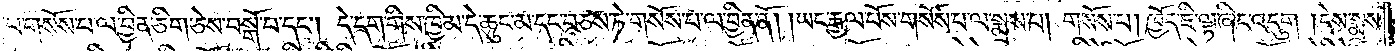པ་གསོས་པ་ལ་བྱིན་ཅིག་ཅེས་བསྒོ་བ་དང༌། དེ་དག་གིས་ཁྱིམ་དེ་ཆུང་མ་དང་བཅས་ཏེ་གསོས་པ་ལ་བྱིན་ནོ། །ཡང་རྒྱལ་པོས་གསོས་པ་ལ་སྨྲས་པ། གསོས་པ། ཁྱོད་ཇི་ལྟ་ཞིང་འདུག །དེས་སྨྲས་
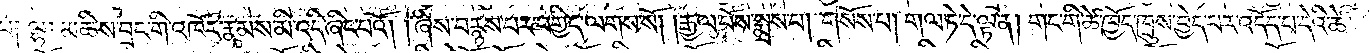པ༑ ལྷ། མཆིས་བྲང་གི་འཁོར་རྣམས་མི་འདི་ཞིང་པའོ། །ཞེས་བརྙས་པར་བགྱིད་ལགས་སོ། །རྒྱལ་པོས་སྨྲས་པ། གསོས་པ། གལ་ཏེ་དེ་ལྟ་ན། གང་གི་ཚེ་ཁྱོད་ཁྲུས་བྱེད་པར་འདོད་པ་དེའི་ཚེ་
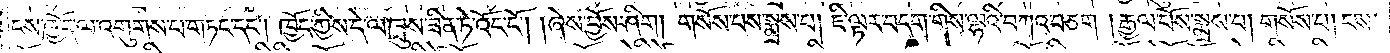ངས་ཁྱོད་ལ་འགུགས་པ་གཏང་དང༌། ཁྱོད་ཀྱིས་དེ་ལ་ཁྲུས་ཟིན་ཏེ་འོང་ངོ༌། །ཞེས་བྱོས་ཤིག །གསོས་པས་སྨྲས་པ། ཇི་ལྟར་བདག་གིས་ལྷའི་བཀའ་བཅག །རྒྱལ་པོས་སྨྲས་པ། གསོས་པ། ངས་
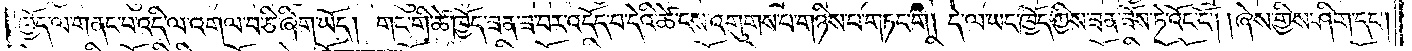ཁྱོད་ལ་གནང་པ་འདི་ལ་འགལ་བ་ཅི་ཞིག་ཡོད། གང་གི་ཚེ་ཁྱོད་ཟན་ཟ་བར་འདོད་པ་དེའི་ཚེ་ངས་འགུགས་པ་གཉིས་པ་གཏང་གི། དེ་ལ་ཡང་ཁྱོད་ཀྱིས་ཟན་ཟོས་ཏེ་འོང་ངོ༌། །ཞེས་གྱིས་ཤིག་དང༌།
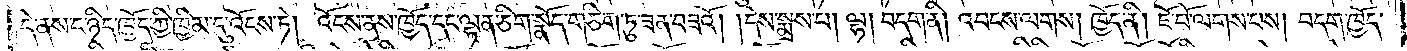དེ་ནས་ང་ཉིད་ཁྱོད་ཀྱི་ཁྱིམ་དུ་འོངས་ཏེ། འོངས་ནས་ཁྱོད་དང་ལྷན་ཅིག་སྣོད་གཅིག་ཏུ་ཟན་བཟའོ། །དེས་སྨྲས་པ། ལྷ། བདག་ནི། འབངས་ལགས། ཁྱོད་ནི། ཇོ་བོ་ལགས་པས། བདག་ཁྱོད་
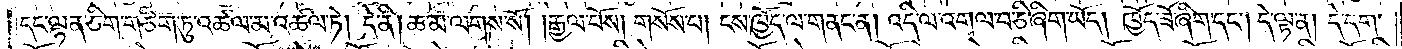དང་ལྷན་ཅིག་གཅིག་ཏུ་འཚལ་མ་འཚལ་ཏེ། དེ་ནི། ཆ་མ་ལགས་སོ། །རྒྱལ་པོས། གསོས་པ། ངས་ཁྱོད་ལ་གནང་ན། འདི་ལ་འགལ་བ་ཅི་ཞིག་ཡོད། ཁྱོད་ཟོ་ཞིག་དང༌། དེ་ལྟ་ན། དེ་དག་
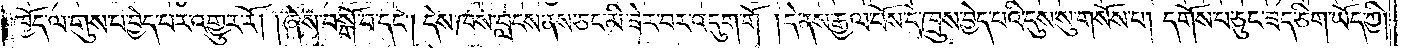ཁྱོད་ལ་གུས་པ་བྱེད་པར་འགྱུར་རོ། །ཞེས་བསྒོ་བ་དང༌། དེས་ཁས་བླངས་ནས་ཅང་མི་ཟེར་བར་འདུག་གོ །དེ་ནས་རྒྱལ་པོས་དེ་ཁྲུས་བྱེད་པའི་དུས་སུ་གསོས་པ། དགོས་ཅུང་ཟད་ཅིག་ཡོད་ཀྱི།
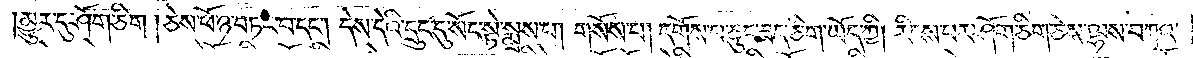མྱུར་དུ་ཤོག་ཅིག །ཅེས་ཕོ་ཉ་བཏང་བ་དང༌། དེས་དེའི་དྲུང་དུ་སོང་སྟེ་སྨྲས་པ། གསོས་པ། དགོས་པ་ཅུང་ཟད་ཅིག་ཡོད་ཀྱི། རིངས་པར་ཤོག་ཅིག་ཅེས་ལྷས་བཀའ་
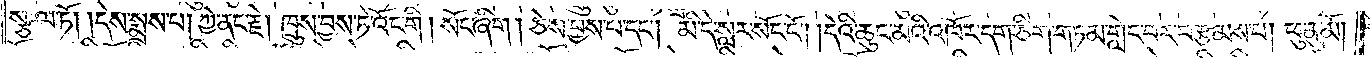སྩལ་ཏོ། །དེས་སྨྲས་པ། ཀྱེ་ནང་རྗེ། ཁྲུས་བྱས་ཏེ་འོང་གི །སོང་ཞིག །ཅེས་བྱས་པ་དང༌། མི་དེ་སླར་སོང་ངོ༌། །དེའི་ཆུང་མའི་འཁོར་དག་ཅིག་གཏམ་གླེང་བར་བརྩམས་པ། ཕུ་ནུ་མོ།
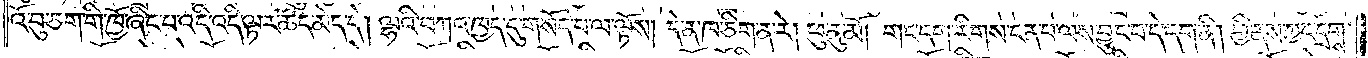འོ་བུ་ཅག་གི་ཁྱོ་ཞིང་པ་འདི་འདི་ལྟར་ཚོད་མེད་དེ། ལྷའི་བཀའ་ཁྱད་དུ་གསོད་པ་ལ་ལྟོས། དེ་ན་ཁ་ཅིག་ན་རེ། ཕུ་ནུ་མོ། གང་དག་རིགས་ངན་པ་ལས་བྱུང་བ་དེ་དག་ནི། གྱི་ནས་ཀྱང་དྲེགས་
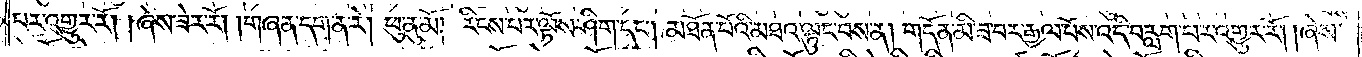པར་འགྱུར་རོ། །ཞེས་ཟེར་རོ། །གཞན་དག་ན་རེ། ཕུ་ནུ་མོ། རིངས་པར་ལྟོས་ཤིག་དང༌། མཐོན་པོའི་མཐའ་ལྟུང་བས་ན། གདོན་མི་ཟ་བར་རྒྱལ་པོས་འདི་བརླག་པར་འགྱུར་རོ། །ཞེས་
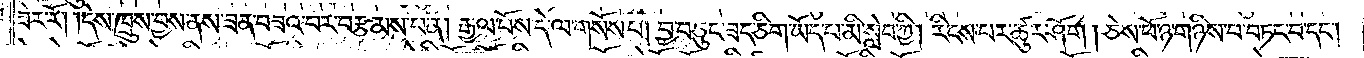ཟེར་རོ། །དེས་ཁྲུས་བྱས་ནས་ཟན་བཟའ་བར་བརྩམས་པ་ན། རྒྱལ་པོས་དེ་ལ་གསོས་པ། བྱ་བ་ཅུང་ཟད་ཅིག་ཡོད་པ་མི་སླེབ་ཀྱི། རིངས་པར་ཚུར་ཤོག །ཅེས་ཕོ་ཉ་གཉིས་པ་བཏང་བ་དང༌།
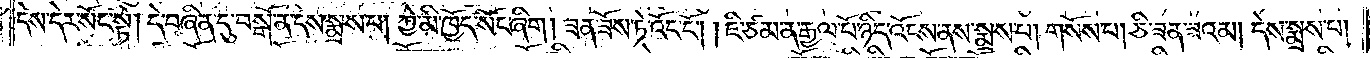དེས་དེར་སོང་སྟེ། དེ་བཞིན་དུ་བསྒོ་ན་དེས་སྨྲས་པ། ཀྱེ་མི་ཁྱོད་སོང་ཞིག །ཟན་ཟོས་ཏེ་འོང་ངོ༌། །ཇི་ཙམ་ན་རྒྱལ་པོ་ཉིད་འོངས་ནས་སྨྲས་པ། གསོས་པ། ཅི་ཟན་ཟའམ། དེས་སྨྲས་པ།
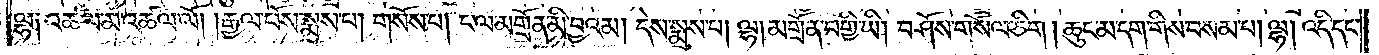ལྷ༑ འཚལ་མ་འཚལ་ལོ། །རྒྱལ་པོས་སྨྲས་པ། གསོས་པ། ང་ལ་མགྲོན་མི་བྱའམ། དེས་སྨྲས་པ། ལྷ། མགྲོན་བགྱི་ཡི། བཤོས་གསོལ་ཅིག །ཆུང་མ་དག་གིས་བསམ་པ། ལྷ། འདི་དང་
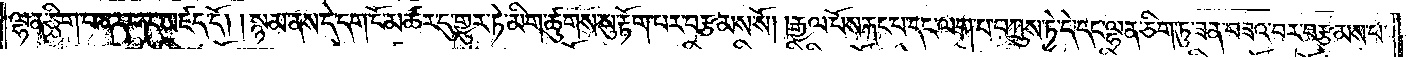ལྷན་ཅིག་བཞད་གད་མཛད་དོ། །སྙམ་ནས་དེ་དག་ངོ་མཚར་དུ་གྱུར་ཏེ་མིག་ཚུགས་སུ་རྟོག་པར་བརྩམས་སོ། །རྒྱལ་པོས་རྐང་པ་དང་ལག་པ་བཀྲུས་ཏེ་དེ་དང་ལྷན་ཅིག་ཏུ་ཟན་བཟའ་བར་བརྩམས་པ་
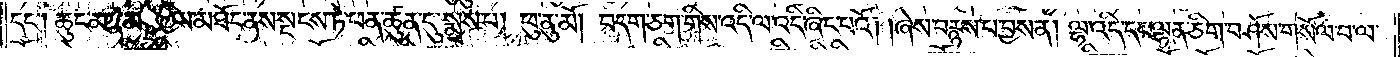དང༌། ཆུང་མ་རྣམས་ཀྱིས་མཐོང་ནས་སྡངས་ཏེ་ཕན་ཚུན་དུ་སྨྲས་པ། ཕུ་ནུ་མོ། །བདག་ཅག་གིས་འདི་ལ་འདི་ཞིང་པའོ། །ཞེས་བརྙས་པ་བྱས་ན། ལྷ་འདི་དང་ལྷན་ཅིག་བཤོས་གསོལ་བ་ལ་
